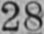28
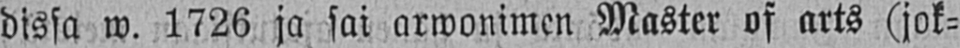dissa w. 1726 ja sai arwonimen Master of arts (jok-
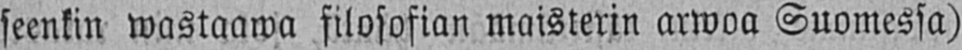seenkin wastaawa filosofian maisterin arwoa Suomessa)
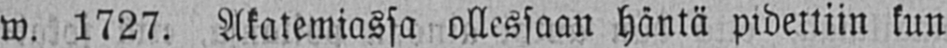w. 1727. Akatemiassa ollessaan häntä pidettiin kun-
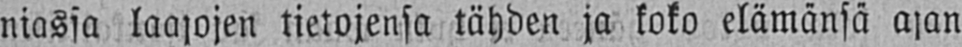niassa laajojen tietojensa tähden ja koko elämänsä ajan
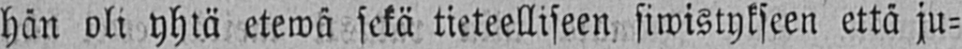hän oli yhtä etewä sekä tieteelliseen siwistykseen että ju-
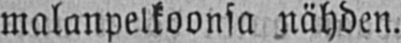malanpelkoonsa nähden.
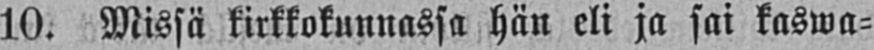10. Missä kirkkokunnassa hän eli ja sai kaswa-
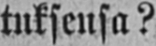tuksensa?
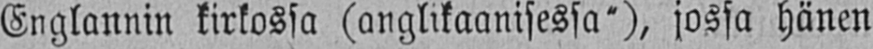Englannin kirkossa (anglikaanisessa"), jossa hänen
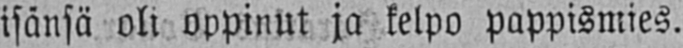isänsä oli oppinut ja kelpo pappismies.
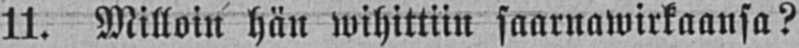11. Milloin hän wihittiin saarnawirkaansa?
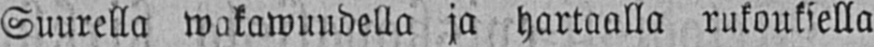Suurella wakawuudella ja hartaalla rukouksella
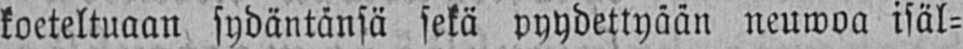koeteltuaan sydäntänsä sekä pyydettyään neuwoa isäl-
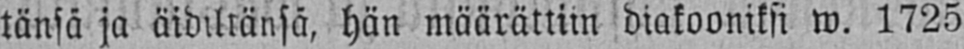tänsä ja äidiltänsä, hän määrättiin diakooniksi w. 1725
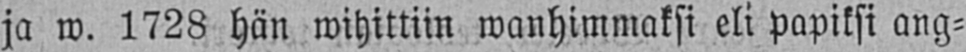ja w. 1728 hän wihittiin wanhimmaksi eli papiksi ang-
